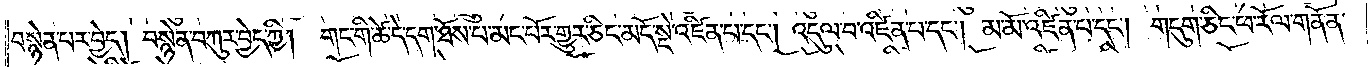བསྙེན་པར་བྱེད། བསྙེན་བཀུར་བྱེད་ཀྱི། གང་གི་ཚེ་དེ་དག་ཐོས་པ་མང་པོར་གྱུར་ཅིང་མདོ་སྡེ་འཛིན་པ་དང༌། འདུལ་བ་འཛིན་པ་དང༌། མ་མོ་འཛིན་པ་དང༌། གདུག་ཅིང་ཕ་རོལ་གནོན་
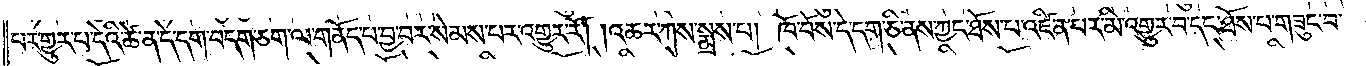པར་གྱུར་པ་དེའི་ཚེ་ན་དེ་དག་བདག་ཅག་ལ་གནོད་པ་བྱ་བར་སེམས་པར་འགྱུར་རོ། །འཆར་ཀས་སྨྲས་པ། ཁོ་བོས་དེ་དག་ཅི་ནས་ཀྱང་ཐོས་པ་འཛིན་པར་མི་འགྱུར་བ་དང་ཐོས་པ་གཟུང་བ་
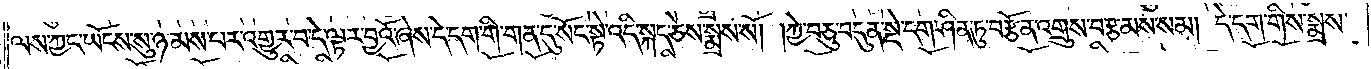ལས་ཀྱང་ཡོངས་སུ་ཉམས་པར་འགྱུར་བ་དེ་ལྟར་བྱའོ་ཞེས་དེ་དག་གི་གན་དུ་སོང་སྟེ་འདི་སྐད་ཅེས་སྨྲས་སོ། །ཀྱེ་བཅུ་བདུན་སྡེ་དག་ཤིན་ཏུ་བརྩོན་འགྲུས་བརྩམས་སམ། དེ་དག་གིས་སྨྲས་
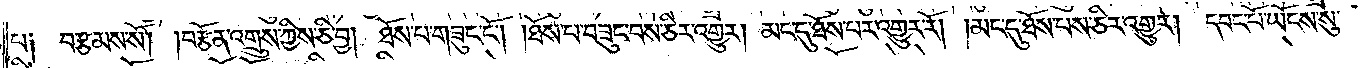པ༑ བརྩམས་སོ། །བརྩོན་འགྲུས་ཀྱིས་ཅི་བྱ། ཐོས་པ་བཟུང་ངོ༌། །ཐོས་པ་བཟུང་བས་ཅིར་འགྱུར། མང་དུ་ཐོས་པར་འགྱུར་རོ། །མང་དུ་ཐོས་པས་ཅིར་འགྱུར། དབང་པོ་ཡོངས་སུ་
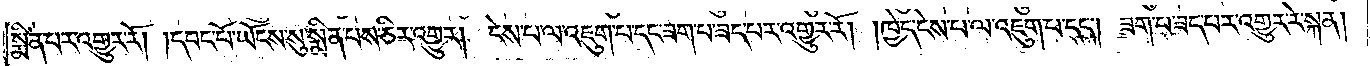སྨིན་པར་འགྱུར་རོ། །དབང་པོ་ཡོངས་སུ་སྨིན་པས་ཅིར་འགྱུར། ངེས་པ་ལ་འཇུག་པ་དང་ཟག་པ་ཟད་པར་འགྱུར་རོ། །ཁྱེད་ངེས་པ་ལ་འཇུག་པ་དང༌། ཟག་པ་ཟད་པར་འགྱུར་རེ་སྐན།
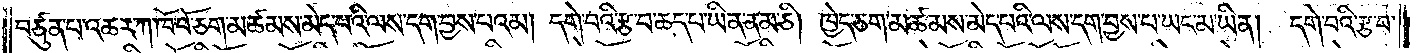བཙུན་པ་འཆར་ཀ་ཁོ་བོ་ཅག་མཚམས་མེད་པའི་ལས་དག་བྱས་པའམ། དགེ་བའི་རྩ་བ་ཆད་པ་ཡིན་ནམ་ཅི། ཁྱེད་ཅག་མཚམས་མེད་པའི་ལས་དག་བྱས་པ་ཡང་མ་ཡིན། དགེ་བའི་རྩ་བ་
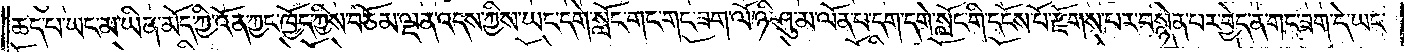ཆད་པ་ཡང་མ་ཡིན་མོད་ཀྱི་འོན་ཀྱང་ཁྱོད་ཀྱིས་བཅོམ་ལྡན་འདས་ཀྱིས་ཡང་དགེ་སློང་གང་གང་ཟག་ལོ་ཉི་ཤུ་མ་ལོན་པ་དག་དགེ་སློང་གི་དངོས་པོ་རྫོགས་པར་བསྙེན་པར་བྱེད་ན་གང་ཟག་དེ་ཡང་
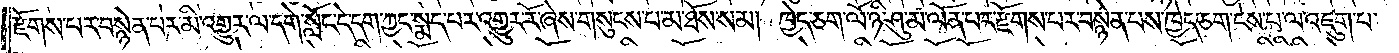རྫོགས་པར་བསྙེན་པར་མི་འགྱུར་ལ་དགེ་སློང་དེ་དག་ཀྱང་སྨད་པར་འགྱུར་རོ་ཞེས་གསུངས་པ་མ་ཐོས་སམ། ཁྱེད་ཅག་ལོ་ཉི་ཤུ་མ་ལོན་པར་རྫོགས་པར་བསྙེན་པས་ཁྱེད་ཅག་ངེས་པ་ལ་འཇུག་པ་
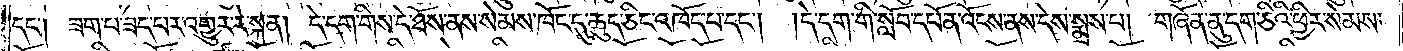དང༌། ཟག་པ་ཟད་པར་འགྱུར་རེ་སྐན། དེ་དག་གིས་དེ་ཐོས་ནས་སེམས་ཁོང་དུ་ཆུད་ཅིང་འཁོད་པ་དང༌། དེ་དག་གི་སློབ་དཔོན་འོངས་ནས་དེས་སྨྲས་པ། གཞོན་ནུ་དག་ཅིའི་ཕྱིར་སེམས་
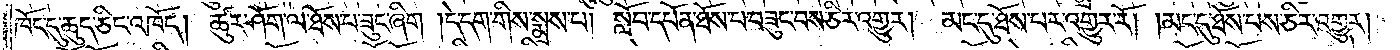ཁོང་དུ་ཆུད་ཅིང་འཁོད། ཚུར་ཤོག་ལ་ཐོས་པ་ཟུང་ཞིག །དེ་དག་གིས་སྨྲས་པ། སློབ་དཔོན་ཐོས་པ་བཟུང་བས་ཅིར་འགྱུར། མང་དུ་ཐོས་པར་འགྱུར་རོ། །མང་དུ་ཐོས་པས་ཅིར་འགྱུར།
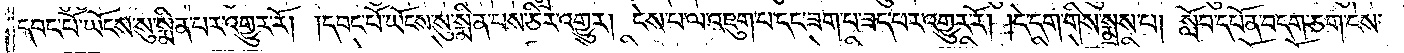དབང་པོ་ཡོངས་སུ་སྨིན་པར་འགྱུར་རོ། །དབང་པོ་ཡོངས་སུ་སྨིན་པས་ཅིར་འགྱུར། ངེས་པ་ལ་འཇུག་པ་དང་ཟག་པ་ཟད་པར་འགྱུར་རོ། །དེ་དག་གིས་སྨྲས་པ། སློབ་དཔོན་བདག་ཅག་ངེས་
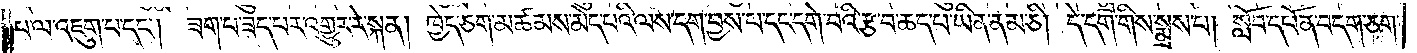པ་ལ་འཇུག་པ་དང༌། ཟག་པ་ཟད་པར་འགྱུར་རེ་སྐན། ཁྱེད་ཅག་མཚམས་མེད་པའི་ལས་དག་བྱས་པ་དང་དགེ་བའི་རྩ་བ་ཆད་པ་ཡིན་ནམ་ཅི། དེ་དག་གིས་སྨྲས་པ། སློབ་དཔོན་བདག་ཅག་
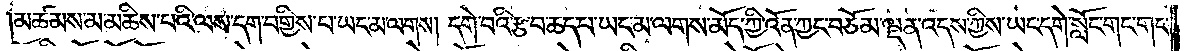མཚམས་མ་མཆིས་པའི་ལས་དག་བགྱིས་པ་ཡང་མ་ལགས། དགེ་བའི་རྩ་བ་ཆད་པ་ཡང་མ་ལགས་མོད་ཀྱི་འོན་ཀྱང་བཅོམ་ལྡན་འདས་ཀྱིས་ཡང་དགེ་སློང་གང་གང་
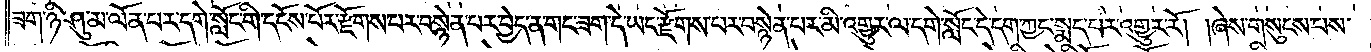ཟག་ཉི་ཤུ་མ་ལོན་པར་དགེ་སློང་གི་དངོས་པོར་རྫོགས་པར་བསྙེན་པར་བྱེད་ན་གང་ཟག་དེ་ཡང་རྫོགས་པར་བསྙེན་པར་མི་འགྱུར་ལ་དགེ་སློང་དེ་དག་ཀྱང་སྨད་པར་འགྱུར་རོ། །ཞེས་གསུངས་པས་
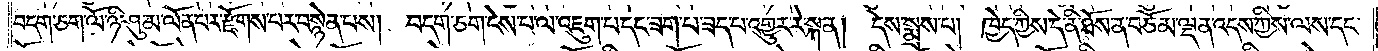བདག་ཅག་ལོ་ཉི་ཤུ་མ་ལོན་པར་རྫོགས་པར་བསྙེན་པས། བདག་ཅག་ངེས་པ་ལ་འཇུག་པ་དང་ཟག་པ་ཟད་པ་འགྱུར་རེ་སྐན། དེས་སྨྲས་པ། ཁྱེད་ཀྱིས་དེ་ནི་ཐོས་ན་བཅོམ་ལྡན་འདས་ཀྱིས་ལས་དང་
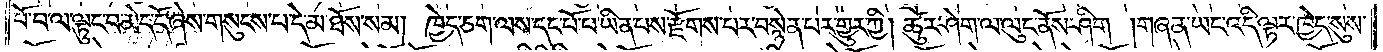པོ་བ་ལ་ལྟུང་བ་མེད་དོ་ཞེས་གསུངས་པ་དེ་མ་ཐོས་སམ། ཁྱེད་ཅག་ལས་དང་པོ་པ་ཡིན་པས་རྫོགས་པར་བསྙེན་པར་གྱུར་ཀྱི། ཚུར་ཤེག་ལ་ལུང་ནོས་ཤིག །གཞན་ཡང་འདི་ལྟར་ཁྱེད་སུས་
